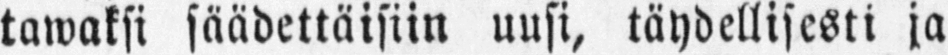tawaksi säädettäisiin uusi, täydellisesti ja
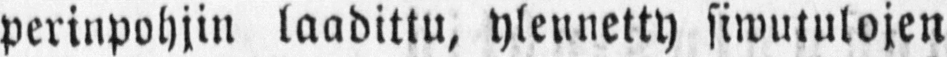perinpohjin laadittu, ylennetty siwutulojen
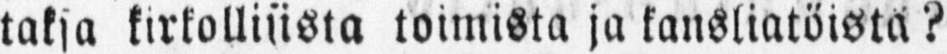taksa kirkollisista toimista ja kansliatöistä?
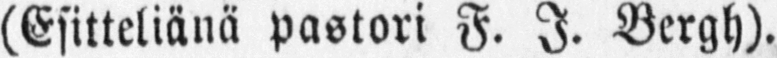(Esitteliänä pastori F. J. Bergh).
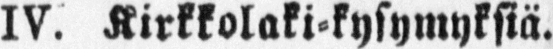IV. Kirkkolaki-kysymyksiä.
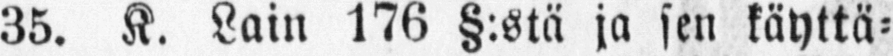35. K. Lain 176 §:stä ja sen käyttä-
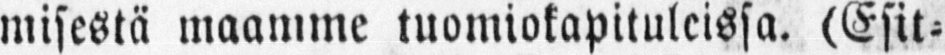misestä maamme tuomiokapituleissa. (Esit-
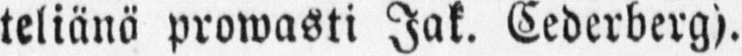teliänä prowasti Jak. Cederberg).
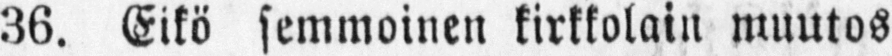36. Eikö semmoinen kirkkolain muutos
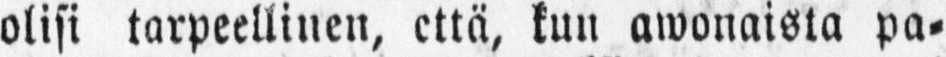olisi tarpeellinen, että, kun awonaista pa-
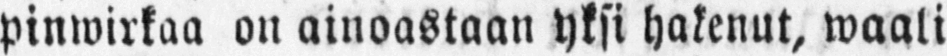pinwirkaa on ainoastaan yksi hakenut, waali
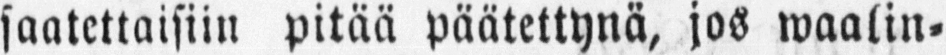saatettaisiin pitää päätettynä, jos waalin-
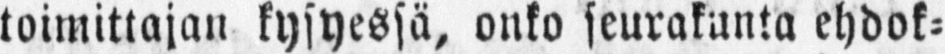toimittajan kysyessä, onko seurakunta ehdok-
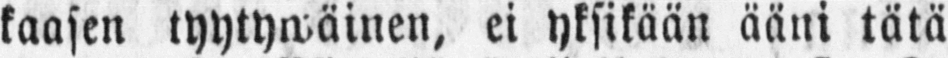kaasen tyytywäinen, ei yksikään ääni tätä
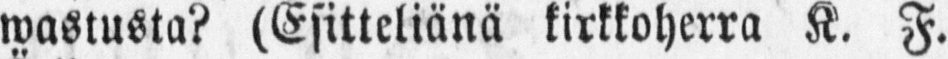wastusta? (Esitteliänä kirkkoherra K. F.
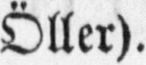Öller).
